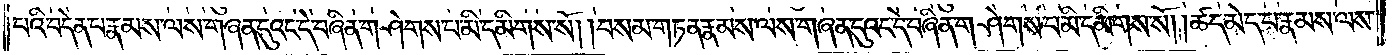པའི་བདེན་པ་རྣམས་ལས་གཞན་དུའང་དེ་བཞིན་གཤེགས་པ་མི་དམིགས་སོ། །བསམ་གཏན་རྣམས་ལས་གཞན་དུའང་དེ་བཞིན་གཤེགས་པ་མི་དམིགས་སོ། །ཚད་མེད་པ་རྣམས་ལས་
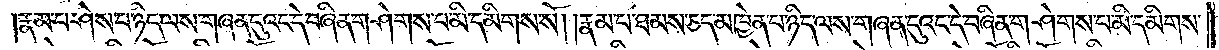རྣམ་པ་ཤས་པ་ཉིད་ལས་གཞན་དུའང་དེ་བཞིན་གཤེགས་པ་མི་དམིགས་སོ། །རྣམ་པ་ཐམས་ཅད་མཁྱེན་པ་ཉིད་ལས་གཞན་དུའང་དེ་བཞིན་གཤེགས་པ་མི་དམིགས་
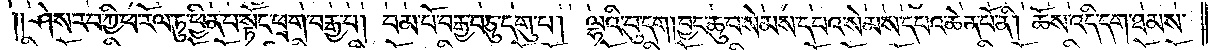སོ༎ཤེས་རབ་ཀྱི་ཕ་རོལ་ཏུ་ཕྱིན་པ་སྟོང་ཕྲག་བརྒྱ་པ།  བམ་པོ་བརྒྱ་བཅུ་དགུ་པ། །ལྷའི་བུ་དག། བྱང་ཆུབ་སེམས་དཔའ་སེམས་དཔའ་ཆེན་པོ་ནི། ཆོས་འདི་དག་ཐམས་
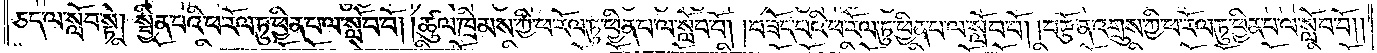ཅད་ལ་སློབ་སྟེ། སྦྱིན་པའི་ཕ་རོལ་ཏུ་ཕྱིན་པ་ལ་སློབ་བོ། །ཚུལ་ཁྲིམས་ཀྱི་ཕ་རོལ་ཏུ་ཕྱིན་པ་ལ་སློབ་བོ། །བཟོད་པའི་ཕ་རོལ་ཏུ་ཕྱིན་པ་ལ་སློབ་བོ། །བརྩོན་འགྲུས་ཀྱི་ཕ་རོལ་ཏུ་ཕྱིན་པ་ལ་སློབ་བོ༎
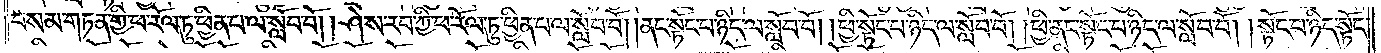བསམ་གཏན་གྱི་ཕ་རོལ་ཏུ་ཕྱིན་པ་ལ་སློབ་བོ། །ཤེས་རབ་ཀྱི་ཕ་རོལ་ཏུ་ཕྱིན་པ་ལ་སློབ་བོ། །ནང་སྟོང་པ་ཉིད་ལ་སློབ་བོ། །ཕྱི་སྟོང་པ་ཉིད་ལ་སློབ་བོ། །ཕྱི་ནང་སྟོང་པ་ཉིད་ལ་སློབ་བོ། །སྟོང་པ་ཉིད་སྟོང་
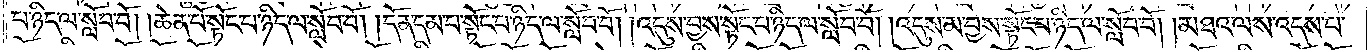པ་ཉིད་ལ་སློབ་བོ། །ཆེན་པོ་སྟོང་པ་ཉིད་ལ་སློབ་བོ། །དོན་དམ་པ་སྟོང་པ་ཉིད་ལ་སློབ་བོ། །འདུས་བྱས་སྟོང་པ་ཉིད་ལ་སློབ་བོ། །འདུས་མ་བྱས་སྟོང་པ་ཉིད་ལ་སློབ་བོ། །མཐའ་ལས་འདས་པ་
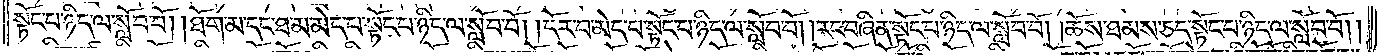སྟོང་པ་ཉིད་ལ་སློབ་བོ། །ཐོག་མ་དང་ཐ་མ་མེད་པ་སྟོང་པ་ཉིད་ལ་སློབ་བོ། །དོར་བ་མེད་པ་སྟོང་པ་ཉིད་ལ་སློབ་བོ། །རང་བཞིན་སྟོང་པ་ཉིད་ལ་སློབ་བོ། །ཆོས་ཐམས་ཅད་སྟོང་པ་ཉིད་ལ་སློབ་བོ༎
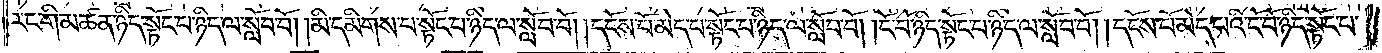རང་གི་མཚན་ཉིད་སྟོང་པ་ཉིད་ལ་སློབ་བོ། །མི་དམིགས་པ་སྟོང་པ་ཉིད་ལ་སློབ་བོ། །དངོས་པོ་མེད་པ་སྟོང་པ་ཉིད་ལ་སློབ་བོ། །ངོ་བོ་ཉིད་སྟོང་པ་ཉིད་ལ་སློབ་བོ། །དངོས་པོ་མེད་པའི་ངོ་བོ་ཉིད་སྟོང་པ་
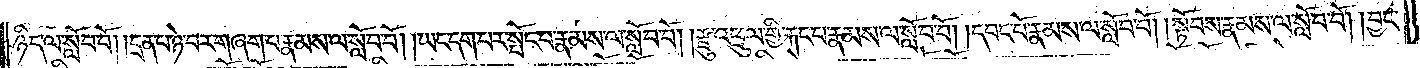ཉིད་ལ་སློབ་བོ། །དྲན་པ་ཉེ་བར་གཞག་པ་རྣམས་ལ་སློབ་བོ། །ཡང་དག་པར་སྤོང་བ་རྣམས་ལ་སློབ་བོ། །རྫུ་འཕྲུལ་གྱི་རྐང་པ་རྣམས་ལ་སློབ་བོ། །དབང་པོ་རྣམས་ལ་སློབ་བོ། །སྟོབས་རྣམས་ལ་སློབ་བོ། །བྱང་
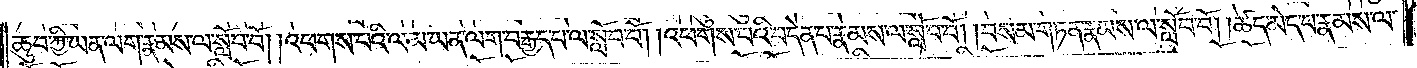ཆུབ་ཀྱི་ཡན་ལག་རྣམས་ལ་སློབ་བོ། །འཕགས་པའི་ལམ་ཡན་ལག་བརྒྱད་པ་ལ་སློབ་བོ། །འཕགས་པའི་བདེན་པ་རྣམས་ལ་སློབ་བོ། །བསམ་གཏན་རྣམས་ལ་སློབ་བོ། །ཚད་མེད་པ་རྣམས་ལ་
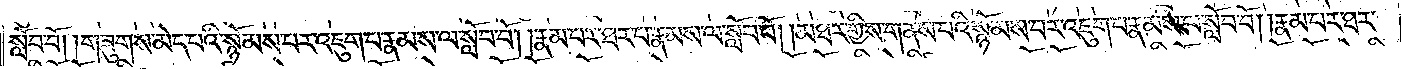སློབ་བོ། །གཟུགས་མེད་པའི་སྙོམས་པར་འཇུག་པ་རྣམས་ལ་སློབ་བོ། །རྣམ་པར་ཐར་པ་རྣམས་ལ་སློབ་བོ། །མཐར་གྱིས་གནས་པའི་སྙོམས་པར་འཇུག་པ་རྣམས་ལ་སློབ་བོ། །རྣམ་པར་ཐར་
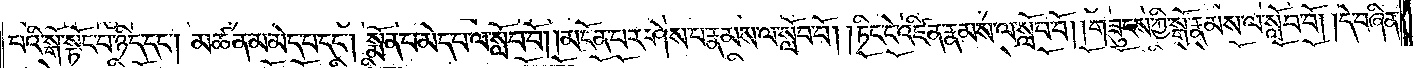པའི་སྒོ་སྟོང་པ་ཉིད་དང༌། མཚན་མ་མེད་པ་དང༌། སྨོན་པ་མེད་པ་ལ་སློབ་བོ། །མངོན་པར་ཤེས་པ་རྣམས་ལ་སློབ་བོ། །ཏིང་ངེ་འཛིན་རྣམས་ལ་སློབ་བོ། །གཟུངས་ཀྱི་སྒོ་རྣམས་ལ་སློབ་བོ། །དེ་བཞིན་
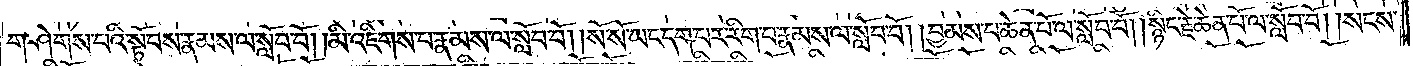གཤེགས་པའི་སྟོབས་རྣམས་ལ་སློབ་བོ། །མི་འཇིགས་པ་རྣམས་ལ་སློབ་བོ། །སོ་སོ་ཡང་དག་པར་རིག་པ་རྣམས་ལ་སློབ་བོ། །བྱམས་པ་ཆེན་པོ་ལ་སློབ་བོ། །སྙིང་རྗེ་ཆེན་པོ་ལ་སློབ་བོ། །སངས་
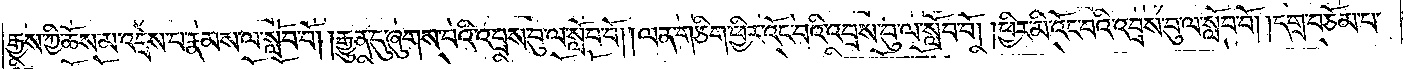རྒྱས་ཀྱི་ཆོས་མ་འདྲེས་པ་རྣམས་ལ་སློབ་བོ། །རྒྱུན་དུ་ཞུགས་པའི་འབྲས་བུ་ལ་སློབ་བོ། །ལན་གཅིག་ཕྱིར་འོང་བའི་འབྲས་བུ་ལ་སློབ་བོ། །ཕྱིར་མི་འོང་བའི་འབྲས་བུ་ལ་སློབ་བོ། །དགྲ་བཅོམ་པ་
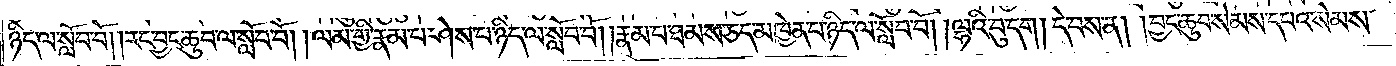ཉིད་ལ་སློབ་བོ། །རང་བྱང་ཆུབ་ལ་སློབ་བོ། །ལམ་གྱི་རྣམ་པ་ཤེས་པ་ཉིད་ལ་སློབ་བོ། །རྣམ་པ་ཐམས་ཅད་མཁྱེན་པ་ཉིད་ལ་སློབ་བོ། །ལྷའི་བུ་དག། དེ་བས་ན། །བྱང་ཆུབ་སེམས་དཔའ་སེམས་
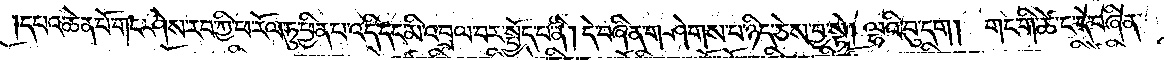དཔའ་ཆེན་པོ་གང་ཤེས་རབ་ཀྱི་ཕ་རོལ་ཏུ་ཕྱིན་པ་འདི་དང་མི་འབྲལ་བར་སྤྱོད་པ་ནི། དེ་བཞིན་གཤེགས་པ་ཉིད་ཅེས་བྱ་སྟེ། ལྷའི་བུ་དག། གང་གི་ཚེ་དེ་བཞིན་
